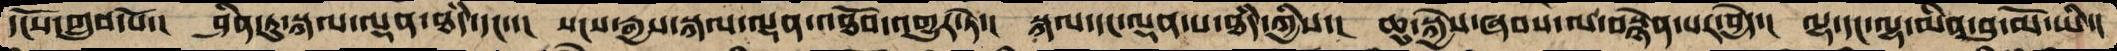དངོས་གྲུབ་པོ་།  ཤིན་ཏུ་སྐལ་ལྡན་ཐདཾ་དང་་།  སངས་རྒྱས་སྐལ་ལྡན་འཐོབ་འགྱུར་ཏེ་།  སྐལ་དང་ལྡན་པ་ཐདཾ་ཀྱིས་།  ཆུ་སྐྱེས་ཞབས་ལ་བསྙེན་པར་བྱེད་།  ལྷ་དང་ལྷ་མིན་བུ་མོ་ཡི་།
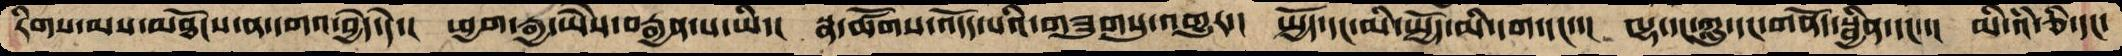རིགས་མས་མཐོངས་ན་དགའ་བྱེད་དེ་།  ཕྱག་རྒྱ་ཡཻས་བརྒྱན་པ་ཡི་།  སྣ་ཚོགས་འདོད་པའི་གཟུགསུ་འགྱུར་།  སྤྱོད་དང་མི་སྤྱོད་མི་དག་དང་་།  ལྷ་དང་ཀླུ་དང་གནོད་སྦྱིན་དང་་།  མི་འཾ་ཅི་དང་
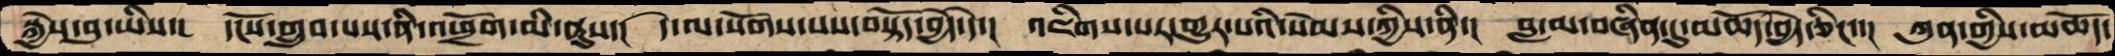སྐྱེས་བུ་ཡིས་།  དངོས་གྲུབ་པས་ནི་འཕྲོག་མི་ནུས་།  དེ་ལ་སོགས་པས་བསྟོད་བྱེད་དེ་།  འཇིགས་པར་གྱུར་པའི་སེམས་ཀྱིས་ནི་།  བླ་མ་བཞིན་དུ་མཆོད་བྱེད་ཅིང་་།  ཀུན་གྱིས་མཆོད་
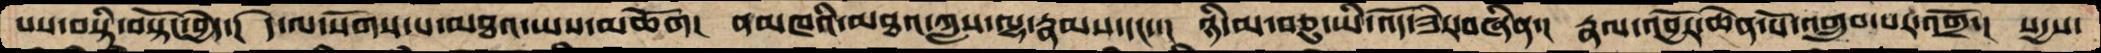པས་བསྟི་བསྟོང་བྱེད་།  དེ་ལ་སོགས་པ་མཐའ་ཡས་མཆོག།  ནམཁའི་མཐའ་ཀླས་ལྷ་རྣམས་དང་་།  ཉི་མ་བཅུ་ཡི་འོད་ཟེར་བཞིན་།  རྣལ་འབྱོར་ཆེན་པོ་འགྲུབ་པར་འགྲོ་།  སདྱས་
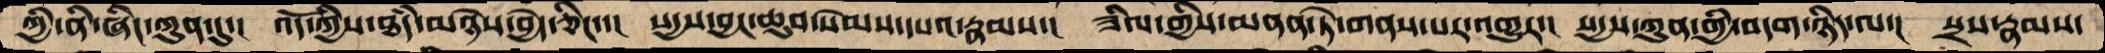ཀྱི་ནི་ཞིང་ཀུན་དུ་།  འོད་ཀྱིས་ཐདཾ་མཉེས་བྱེད་ཅིང་་།  སདྱས་བྱང་ཆུབ་སེམས་དཔའ་རྣམས་།  ཟིལ་གྱིས་མནན་ཏེ་གནས་པར་འགྱུར་།  སདྱས་ཀུན་གྱི་བདག་ཉིད་ལ་།  སྲས་རྣམས་
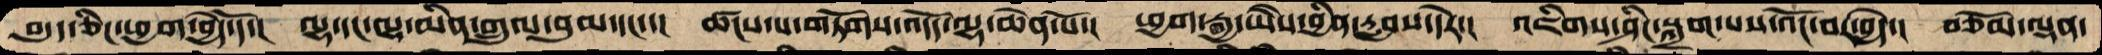བདུད་ཅིང་ཕྱག་བྱེད་དོ་།  ལྷ་དང་ལྷ་མིན་གྲུལ་བུམ་དང་་།  ཚངས་པ་གཏོགས་འདོད་ལྷ་ཆེན་པོ་།  ཕྱག་རྒྱ་ཡཻས་བྱིན་རླབས་དེར་།  འཇིགས་ཤིང་སྐྲག་པས་འོང་བར་བྱེད་།  བཅོམ་ལྡན་
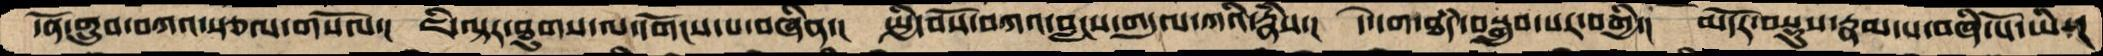དོན་གྲུབ་བཀའ་སྩལ་གསོལ་།  ཇི་ལྟར་ཐུགས་ལ་དགོངས་པ་བཞིན་།  སྤྱི་བོས་བཀའ་བླངས་གདུལ་ཀའི་རྣཾས་།  དེ་དག་ཐདཾ་བསྒྲུབ་པར་བགྱི་།  མདོར་བསྡུས་རྣམ་པ་བཞི་པོ་ཡི་།
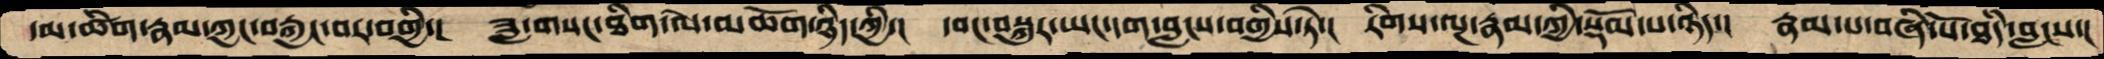དམ་ཚིག་རྣམ་ཀྱང་བརྒྱང་བར་བགྱི་།  ཟླ་གསང་ཐིག་ལེ་མཆོག་ཉིད་ཀྱི་།  དབང་བསྐུར་ཡང་དག་བླངས་བགྱིས་ཏེ་།  རིགས་ལྔ་རྣམ་ཀྱི་སྡོམ་པ་ཉིད་།  རྣམ་པ་བཞི་པོ་ཐཾད་བླངས་།
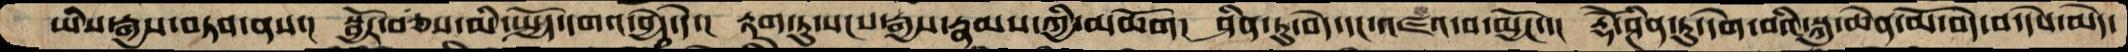ཡིས་རྒྱས་བཏབ་ནས་།  སྦྱོར་བཅས་མི་སྤྱོད་དགའ་བྱེད་དེ་།  རྟག་ཏུ་སངས་རྒྱས་རྣམས་ཀྱི་མཆོག།  ཤིན་ཏུ་བདེ་དང་འཛའ་བ་མྱོང་་།  རྡོེ་ཤིན་ཏུ་དགེ་བའི་སྐུ་ཆེན་མོ་བདེ་བ་དཔེ་མེད་
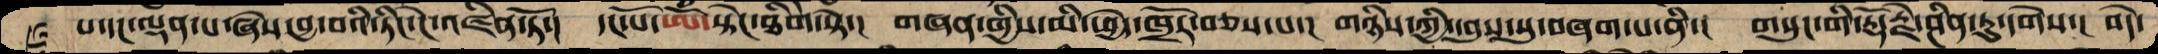པ་དང་ལྡན་པ་ཞེས་བྱ་བའི་ཏིང་ངེ་འཛིན་ཏོ་།།  དང་པོ་ཨོཾ་སྟེང་ཐིགེ་སྟེ་། གཞན་གྱིས་མི་ཕྱེད་ཁྲོར་བཅས་པ་། གཉིས་ཀྱི་དབུས་སུ་བཞག་པ་ནི་། གསང་གི་རྡོ་རྗེ་ཤིན་ཏུ་དགེས་། བདེ་
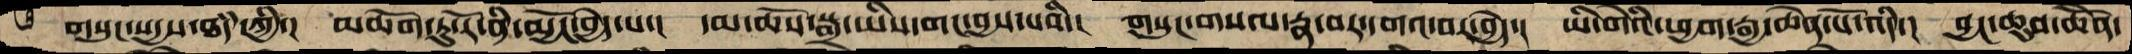གསུང་སདྱས་ཐདཾ་ཀྱི་། མཆོག་ཏུ་རོ་ནི་མྱོང་བྱེད་པ་། དམ་ཆོས་སྒྲ་ཡིས་གང་བྱས་པའི་། གསང་གསལ་རྣ་བར་དགའ་བར་བྱེད་། ཡི་གེའི་ཕྱག་རྒྱ་ཆེན་པོ་འདི་། བྱང་ཆུབ་ཆེནོ་
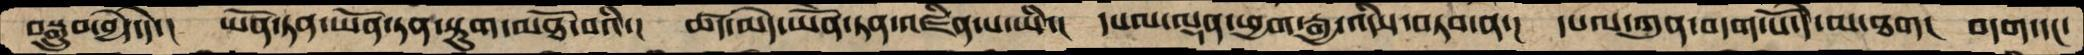བསྒྲུབ་བྱེད་དེ་།  ཡོན་ཏན་ཡོན་ཏན་སྟུག་མཐོ་བའི་། ཚད་མེད་ཡོན་ཏན་འཛིན་པ་ཡི་།  དཔལ་ལྡན་ཕྱག་རྒྱ་འདིས་བཏབ་ན་།  དཔལ་ཀུན་བདག་པོ་དེ་མ་ཐག་།  བདག་དང་
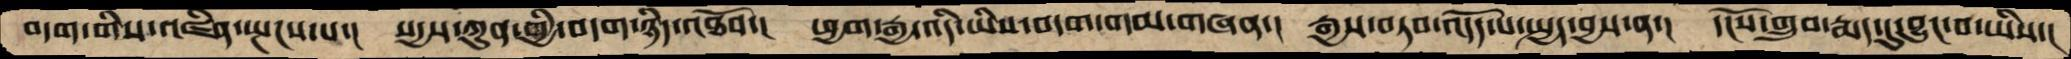བདག་གིས་འཛིན་སྤངས་པ་།  སདྱས་ཀུན་གྱི་བདག་ཉིད་འཐོབ་།  ཕྱག་རྒྱ་འདི་ཡིས་བདག་གམ་གཞན་།  རྒྱས་བཏབ་འདོད་པ་སྤྱད་བྱས་ན་།  དངོས་གྲུབ་རྨད་དུ་བྱུང་བ་ཡིས་།
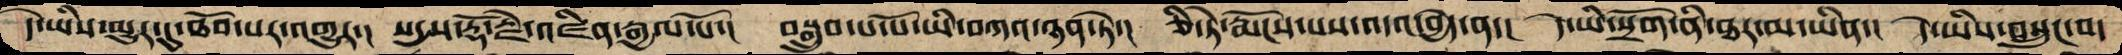དེ་ཡིས་མྱུར་དུ་ཐོབ་པར་འགྱུར་།  སདྱས་རྡོ་རྗེ་འཛིན་རྒྱལ་པོ་།  བསྒྲུབ་པ་པོ་ཡི་བཀའ་ཉན་ཏེ་།  ཅི་ཏེ་རྨོངས་པས་འདའ་བྱེད་ན་།  དེ་ཡི་སྲོག་ནི་ཐར་མ་ཡིན་།  དེ་ཡིས་བསྲུང་བ་
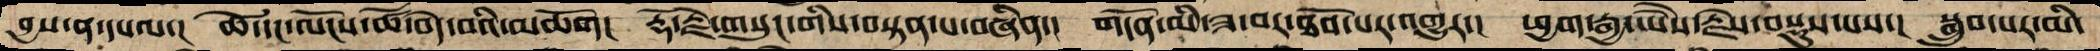བྱས་ན་དཔལ་།  ཚེ་དང་ལོངས་ཚེ་བདེ་བའི་མཆོག།  རྡོ་རྗེ་གསུང་གིས་བསྟན་པ་བཞིན་།  གདོན་མི་ཟ་བར་ཐོབ་པར་འགྱུར་།  ཕྱག་རྒྱ་ཡཻས་རྗེས་བསྡུས་པས་།  སྒྲུབ་པར་མི་
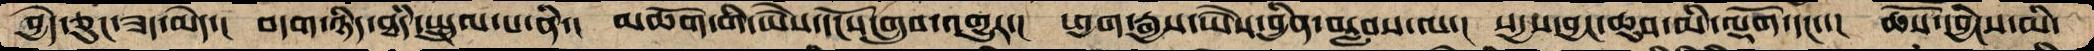བྱེད་ཅུང་ཟད་མེད་།  བདག་ཉིད་ཐདཾ་སྤྲུལ་པ་ནི་།  མཆོག་གི་ཡཻས་དངོས་གྲུབ་འགྱུར་།  ཕྱག་རྒྱས་ཡཻས་བྱིན་བརླབས་ལ་།  སདྱས་བྱང་ཆུབ་མི་ལྡོག་དང་་།  ཆོས་དབྱིངས་མི་
